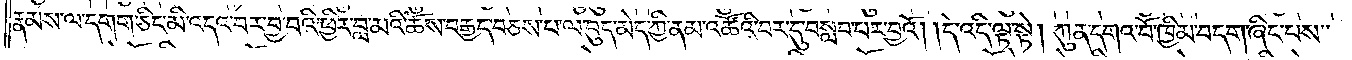རྣམས་ལ་དགག་ཅིང་མི་འདའ་བར་བྱ་བའི་ཕྱིར་བླ་མའི་ཆོས་བརྒྱད་བཅས་པ་ལ་བུད་མེད་ཀྱི་ནམ་འཚོའི་བར་དུ་བསླབ་པར་བྱའོ། །དེ་འདི་ལྟ་སྟེ། ཀུན་དགའ་བོ་ཁྱིམ་བདག་ཞིང་པས་
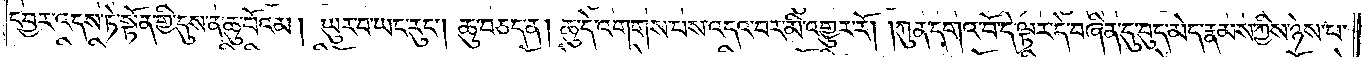དབྱར་འདས་ཏེ་སྟོན་གྱི་དུས་ན་ཆུ་བོའམ། ཡུར་བ་ཡང་རུང༌། ཆུ་བཅད་ན། ཆུ་དེ་འགགས་པས་འདའ་བར་མི་འགྱུར་རོ། །ཀུན་དགའ་བོ་དེ་ལྟར་དེ་བཞིན་དུ་བུད་མེད་རྣམས་ཀྱིས་ཉེས་པ་
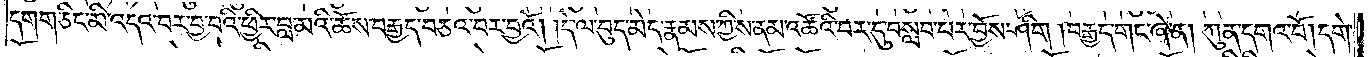དགག་ཅིང་མི་འདའ་བར་བྱ་བའི་ཕྱིར་བླ་མའི་ཆོས་བརྒྱད་བཅའ་བར་བྱའོ། །དེ་ལ་བུད་མེད་རྣམས་ཀྱིས་ནམ་འཚོའི་བར་དུ་བསླབ་པར་བྱོས་ཤིག །བརྒྱད་གང་ཞེ་ན། ཀུན་དགའ་བོ། དགེ་
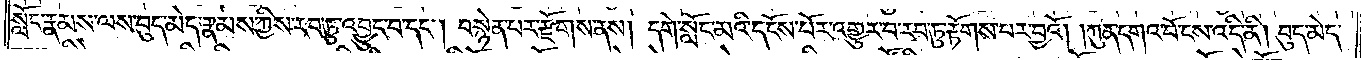སློང་རྣམས་ལས་བུད་མེད་རྣམས་ཀྱིས་རབ་ཏུ་འབྱུང་བ་དང༌། བསྙེན་པར་རྫོགས་ནས། དགེ་སློང་མའི་དངོས་པོར་འགྱུར་བ་རབ་ཏུ་རྟོགས་པར་བྱའོ། །ཀུན་དགའ་བོ་ངས་འདི་ནི། བུད་མེད་
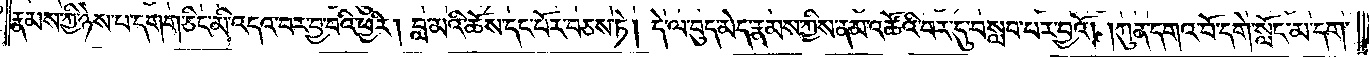རྣམས་ཀྱི་ཉེས་པ་དགག་ཅིང་མི་འདའ་བར་བྱ་བའི་ཕྱིར། བླ་མའི་ཆོས་དང་པོར་བཅས་ཏེ། དེ་ལ་བུད་མེད་རྣམས་ཀྱིས་ནམ་འཚོའི་བར་དུ་བསླབ་པར་བྱའོ། །ཀུན་དགའ་བོ་དགེ་སློང་མ་དག་
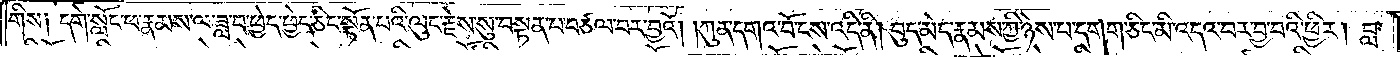གིས༑ དགེ་སློང་ཕ་རྣམས་ལ་ཟླ་བ་ཕྱེད་ཕྱེད་ཅིང་སྟོན་པའི་ལུང་རྗེས་སུ་བསྟན་པ་བཙལ་བར་བྱའོ། །ཀུན་དགའ་བོ་ངས་འདི་ནི། བུད་མེད་རྣམས་ཀྱི་ཉེས་པ་དགག་ཅིང་མི་འདའ་བར་བྱ་བའི་ཕྱིར། བླ་
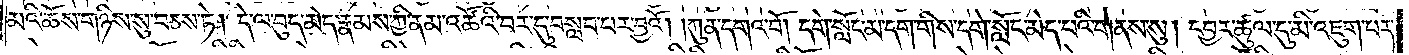མའི་ཆོས་གཉིས་སུ་བཅས་ཏེ། དེ་ལ་བུད་མེད་རྣམས་ཀྱི་ནམ་འཚོའི་བར་དུ་བསླབ་པར་བྱའོ། །ཀུན་དགའ་བོ། དགེ་སློང་མ་དག་གིས་དགེ་སློང་མེད་པའི་གནས་སུ། དབྱར་ཚུལ་དུ་མི་འཇུག་པར་
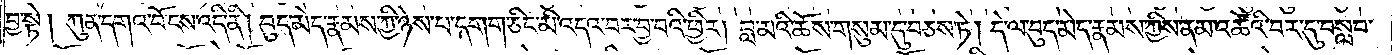བྱ་སྟེ། ཀུན་དགའ་བོ་ངས་འདི་ནི། བུད་མེད་རྣམས་ཀྱི་ཉེས་པ་དགག་ཅིང་མི་འདའ་བར་བྱ་བའི་ཕྱིར། བླ་མའི་ཆོས་གསུམ་དུ་བཅས་ཏེ། དེ་ལ་བུད་མེད་རྣམས་ཀྱིས་ནམ་འཚོའི་བར་དུ་བསླབ་
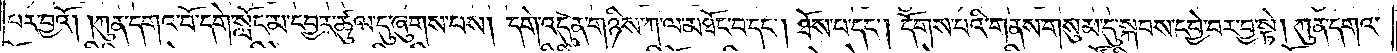པར་བྱའོ། །ཀུན་དགའ་བོ་དགེ་སློང་མ་དབྱར་ཚུལ་དུ་ཞུགས་པས། དགེ་འདུན་གཉིས་ཀ་ལ་མཐོང་བ་དང༌། ཐོས་པ་དང༌། དོགས་པའི་གནས་གསུམ་དུ་སྐབས་དབྱེ་བར་བྱ་སྟེ། ཀུན་དགའ་
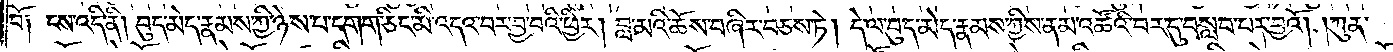བོ༑ ངས་འདི་ནི། བུད་མེད་རྣམས་ཀྱི་ཉེས་པ་དགག་ཅིང་མི་འདའ་བར་བྱ་བའི་ཕྱིར། བླ་མའི་ཆོས་བཞིར་བཅས་ཏེ། དེ་ལ་བུད་མེད་རྣམས་ཀྱིས་ནམ་འཚོའི་བར་དུ་བསླབ་པར་བྱའོ། །ཀུན་
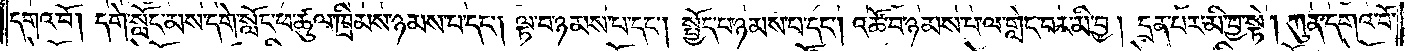དགའ་བོ། དགེ་སློང་མས་དགེ་སློང་ཕ་ཚུལ་ཁྲིམས་ཉམས་པ་དང༌། ལྟ་བ་ཉམས་པ་དང༌། སྤྱོད་པ་ཉམས་པ་དང༌། འཚོ་བ་ཉམས་པ་ལ་གླེང་བར་མི་བྱ། དྲན་པར་མི་བྱ་སྟེ། ཀུན་དགའ་བོ་
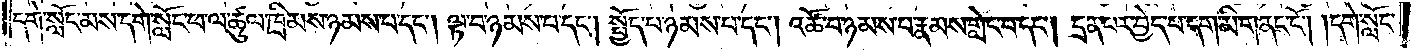དགེ་སློང་མས་དགེ་སློང་ཕ་ལ་ཚུལ་ཁྲིམས་ཉམས་པ་དང༌། ལྟ་བ་ཉམས་པ་དང༌། སྤྱོད་པ་ཉམས་པ་དང༌། འཚོ་བ་ཉམས་པ་རྣམས་གླེང་བ་དང༌། དྲན་པར་བྱེད་པ་དག་མི་གནང་ངོ༌། །དགེ་སློང་
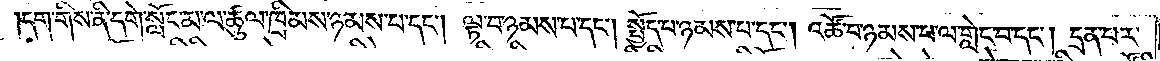དག་གིས་ནི་དགེ་སློང་མ་ལ་ཚུལ་ཁྲིམས་ཉམས་པ་དང༌། ལྟ་བ་ཉམས་པ་དང༌། སྤྱོད་པ་ཉམས་པ་དང༌། འཚོ་བ་ཉམས་པ་ལ་གླེང་བ་དང༌། དྲན་པར་
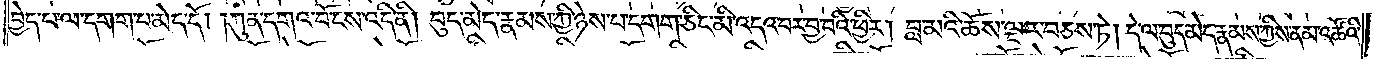བྱེད་པ་ལ་དགག་པ་མེད་དོ། །ཀུན་དགའ་བོ་ངས་འདི་ནི། བུད་མེད་རྣམས་ཀྱི་ཉེས་པ་དགག་ཅིང་མི་འདའ་བར་བྱ་བའི་ཕྱིར། བླ་མའི་ཆོས་ལྔར་བཅས་ཏེ། དེ་ལ་བུད་མེད་རྣམས་ཀྱིས་ནམ་འཚོའི་
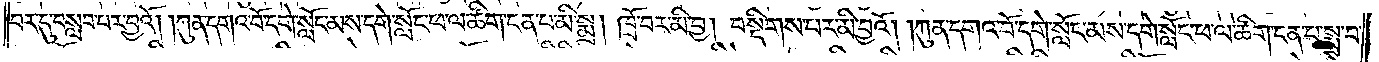བར་དུ་བསླབ་པར་བྱའོ། །ཀུན་དགའ་བོ་དགེ་སློང་མས་དགེ་སློང་ཕ་ལ་ཚིག་ངན་པ་མི་སྨྲ། ཁྲོ་བར་མི་བྱ། བསྡིགས་པར་མི་བྱའོ། །ཀུན་དགའ་བོ་དགེ་སློང་མས་དགེ་སློང་ཕ་ལ་ཚིག་ངན་པ་སྨྲ་བ་
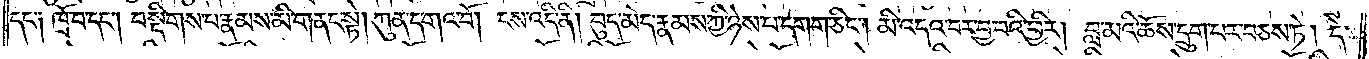དང༑ ཁྲོ་བ་དང༌། བསྡིགས་པ་རྣམས་མི་གནང་སྟེ། ཀུན་དགའ་བོ། ངས་འདི་ནི། བུད་མེད་རྣམས་ཀྱི་ཉེས་པ་དགག་ཅིང༌། མི་འདའ་བར་བྱ་བའི་ཕྱིར། བླ་མའི་ཆོས་དྲུག་པར་བཅས་ཏེ། དེ་
